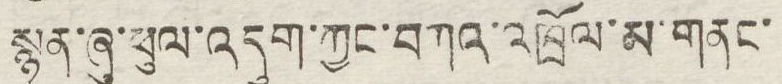སྙན་ཞུ་ཕུལ་འདུག་ཀྱང་བཀའ་འཁྲོལ་མ་གནང་
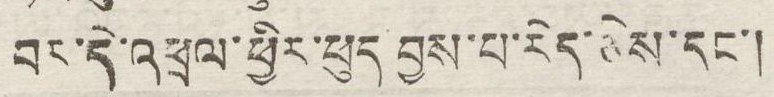བར་དེ་འཕྲལ་ཕྱིར་ཕུད་བྱས་པ་རེད་ཅེས་དང་།
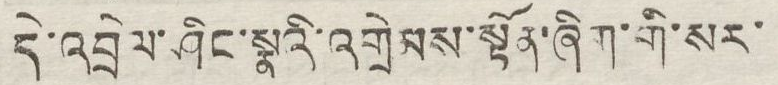དེ་འབྲེལ་ཤིང་སྣའི་འགྲེམས་སྟོན་ཞིག་གི་སར་
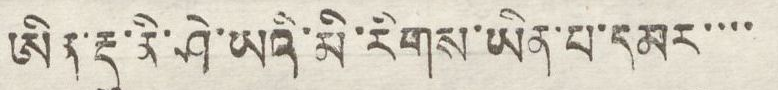ཨིན་རྡུའི་ནི་ཤེ་ཡའི་མི་རིགས་ཡིན་པ་དམར་་་་
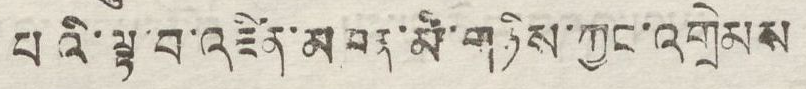པའི་ལྟ་བ་འཛིན་མཁན་མི་གཉིས་ཀྱང་འགྲེམས
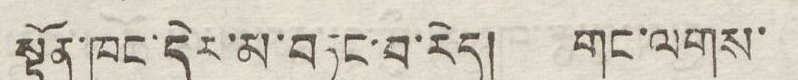སྟོན་ཁང་དེར་མ་བཏང་བ་རེད། གང་ལགས་
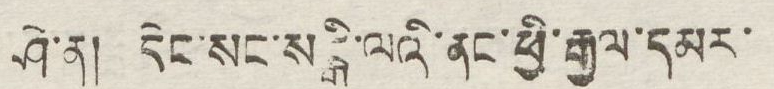ཤེ་ན། དེང་སང་སངྒི་ལའི་ནང་ཕྱི་རྒྱལ་དམར་
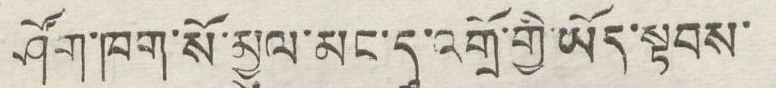ཤོག་ཁག་སོ་མྱུར་མང་དུ་འགྲོ་གྱི་ཡོད་སྟབས་
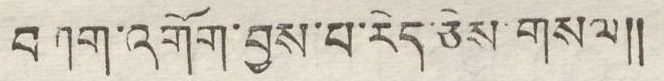བཀག་འགོག་བྱས་པ་རེད་ཅེས་གསལ།།
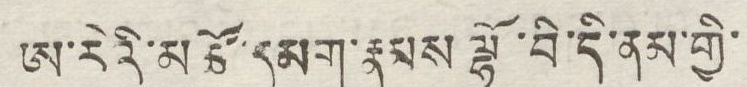ཨ་རིའི་མཚོ་དམག་རྣམས་ལྷོ་བི་དི་ནམ་གྱི་
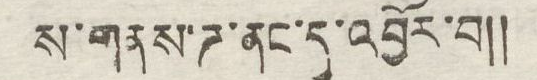ས་གནས་ཌ་ནང་དུ་འབྱོར་བ།།
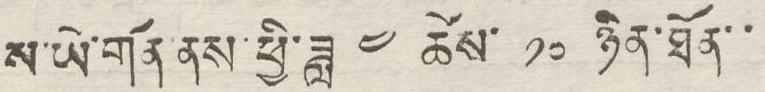ས་ཡེ་གོན ནས་ཕྱི་ཟླ་ ༤ ཚེས་ ༡༠ ཉིན་ཐོན་་
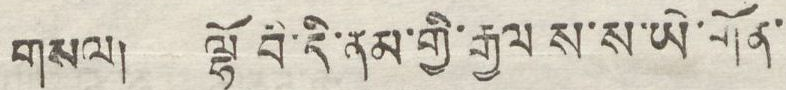གསལ། ལྷོ བི་དི་ནམ་གྱི་རྒྱལ ས་ས་ཡེ་གོན་
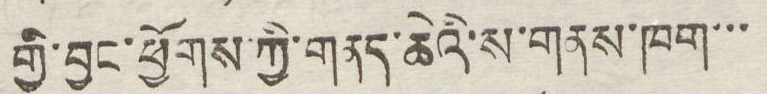གྱི་བྱང་ཕྱོགས་ཀྱི་གནད་ཆེའི་ས་གནས་ཁག་་་
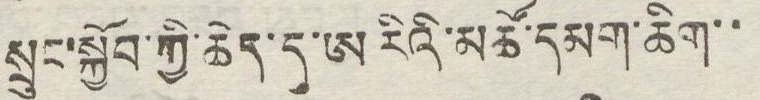སྲུང་སྐྱོབ་ཀྱི་ཆེད་དུ་ཨ་རིའི་མཚོ་དམག་ཆིག་་་
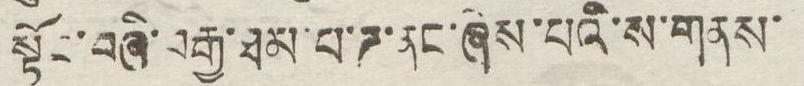སྟོང་བཞི་བརྒྱ་ཐབ་པ་ཌ་ནང་ཞེས་པའི་ས་གནས་
